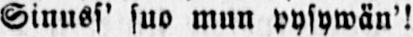Sinuss' suo mun pysywän'!
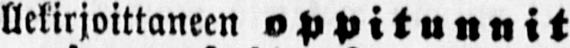Allekirjoittaneen oppitunnit
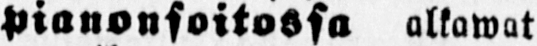Pianonsoitossa alkwat
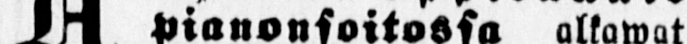tammikuun 14 p:nä. Uusia
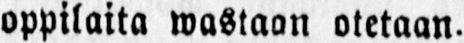oppilaita wastaan otetaan.
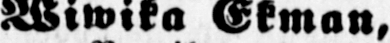Wiwika Ekman,
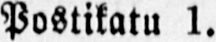Postikatu 1.
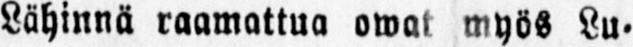Lähinnä raamattua owat myös Lu-
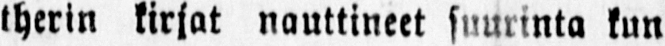therin kirjat nauttineet suurinta kun-
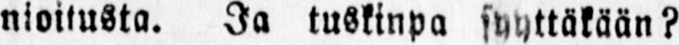nioitusta. Ja tuskinpa syyttäkään?
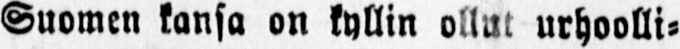Suomen kansa on kyllin ollut urhoolli-
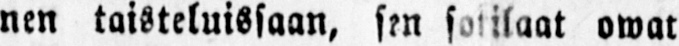nen taisteluissaan, sen sotilaat owat
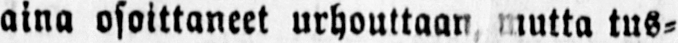aina osoittaneet urhouttaan mutta tus-
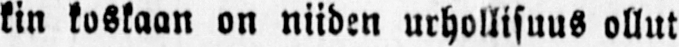kin koskaan on niiden urhollisuus ollut
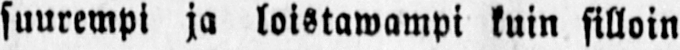suurempi ja loistawampi kuin silloin
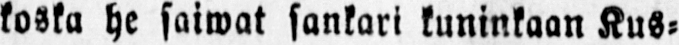koska he soiwat sankari kuninkaan Kus-
